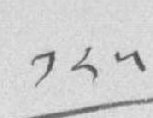༡༨༥
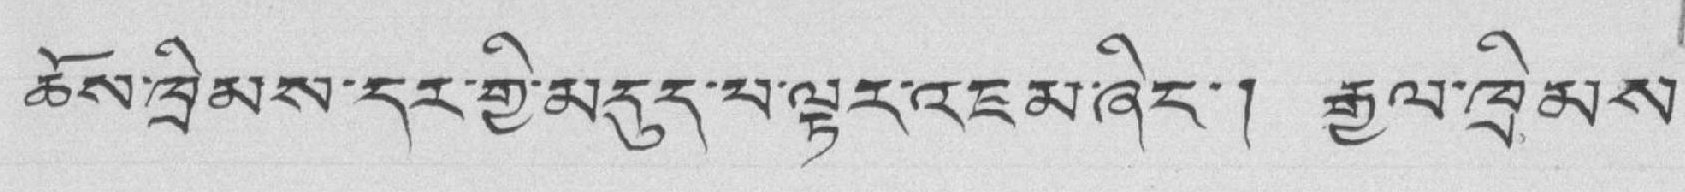ཆོས་ཁྲིམས་དར་གྱི་མདུད་པ་ལྟར་འཇམ་ཞིང་། རྒྱལ་ཁྲིམས་
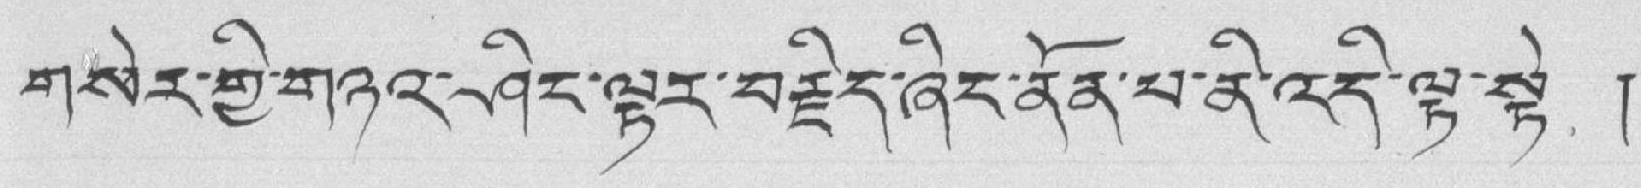གསེར་གྱི་གཉའ་ཤིང་ལྟར་བརྗིད་ཞིང་ནོན་པ་ནི་འདི་ལྟ་སྟེ །
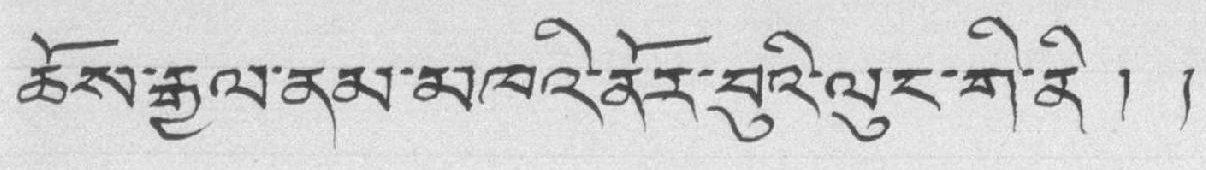ཆོས་རྒྱལ་ནམ་མཁའི་ནོར་བུའི་ལུང་གི་ནི།།
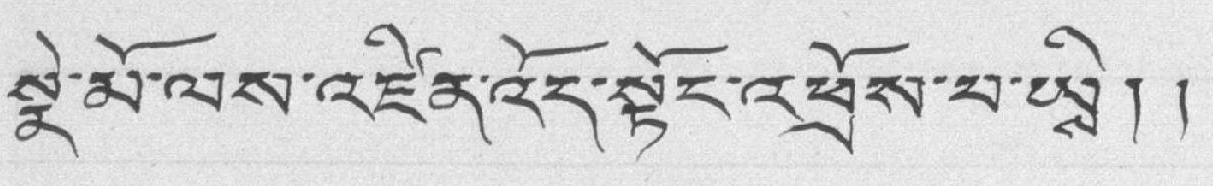སྣེ་མོ་ལས་འཛིན་འོད་སྟོང་འཕྲོས་པ་ཡིས།།
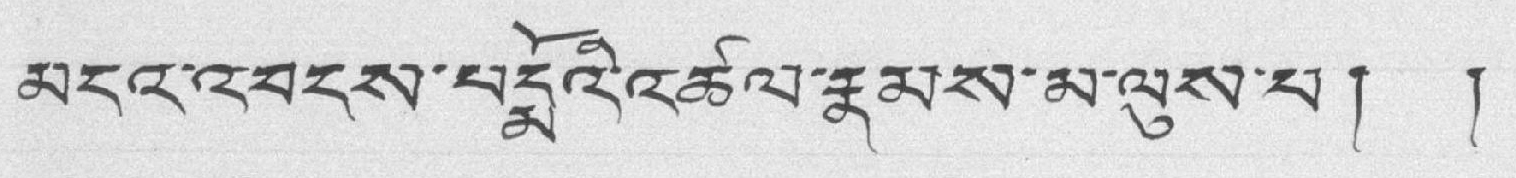མངའ་འབངས་པདྨོའི་འཚལ་རྣམས་མ་ལུས་པ། །
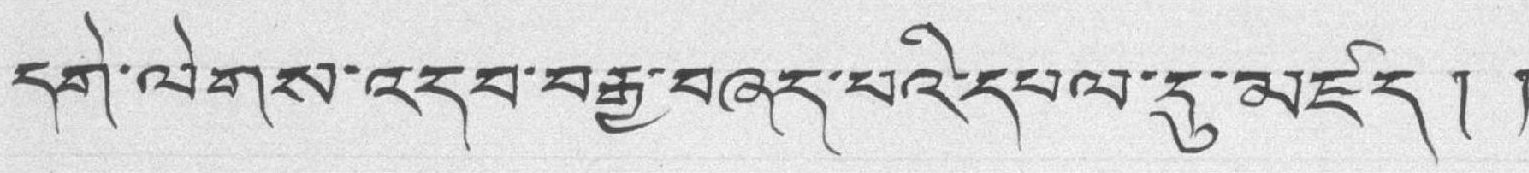དགེ་ལེགས་འདབ་བརྒྱ་བཞད་པའི་དཔལ་དུ་མཛད།།
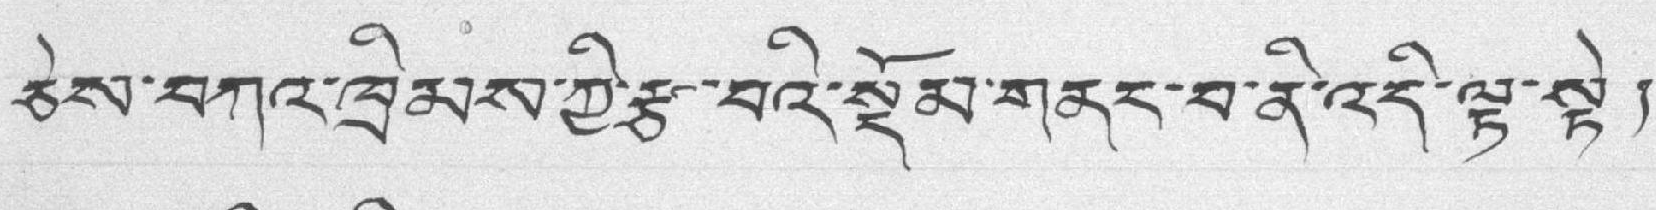ཅེས་བཀའ་ཁྲིམས་ཀྱི་རྩ་བའི་སྡོམ་གནང་བ་ནི་འདི་ལྟ་སྟེ།
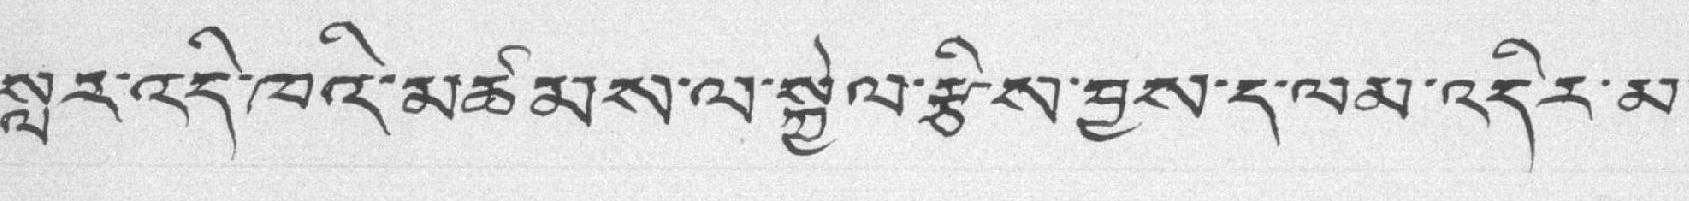སླར་འདི་ཁའི་མཚམས་ལ་སྐྱེལ་རྩིས་བྱས་ད་ལམ་འདིར་མ་
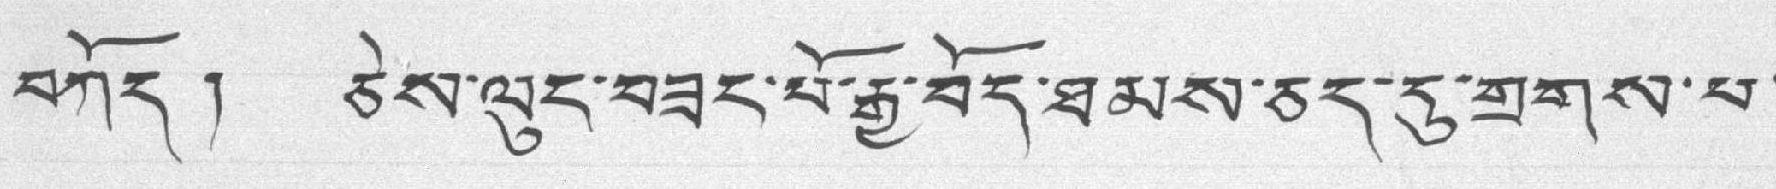བཀོད། ཅེས་ལུང་བཟང་པོ་རྒྱ་བོད་ཐམས་ཅད་དུ་གྲགས་པ་
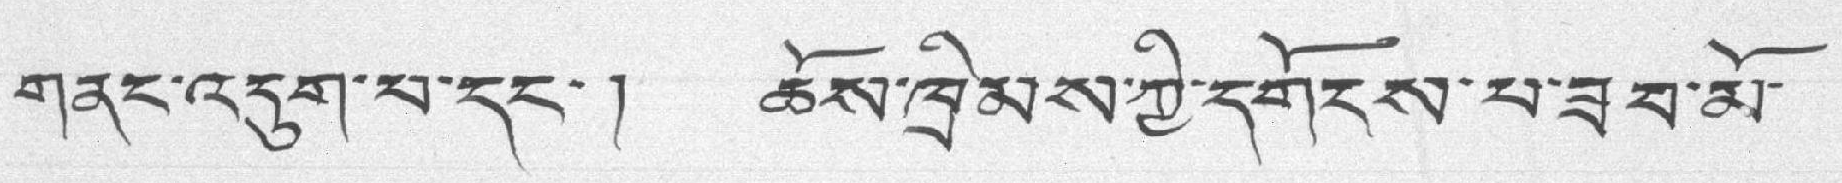གནང་འདུག་པ་དང་། ཆོས་ཁྲིམས་ཀྱི་དགོངས་པ་ཟབ་མོ་
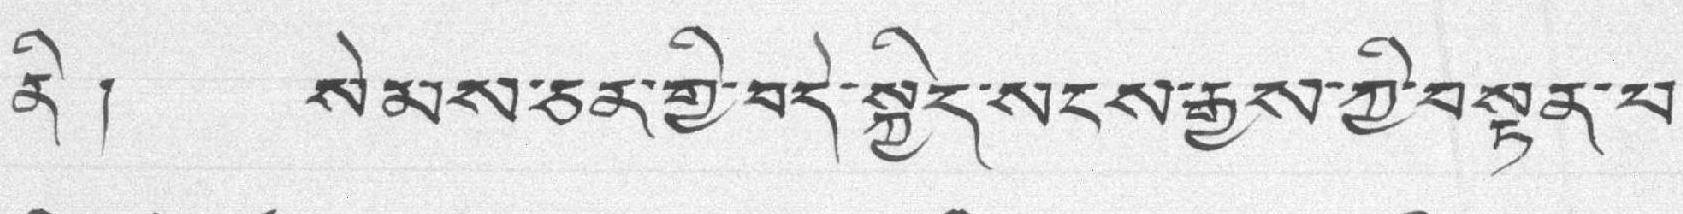ནི། སེམས་ཅན་གྱི་བདེ་སྐྱིད་སངས་རྒྱས་ཀྱི་བསྟན་པ་
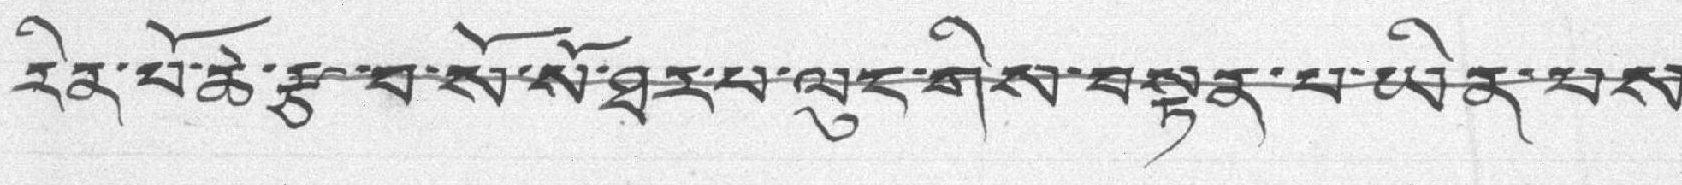རིན་པོ་ཚེ་རྩ་བ་སོ་སོ་ཐར་པ་ལུད་གིས་བསྟན་པ་ཡིན་པས་
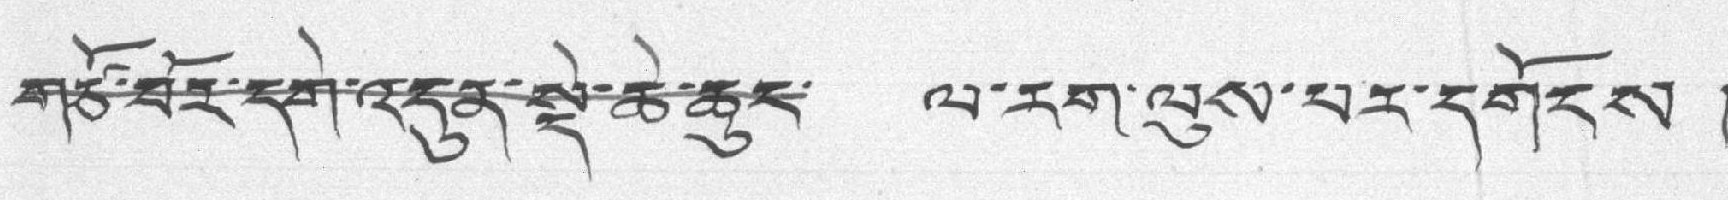གཙོ་བོར་དགེ་འདུན་སྡེ་ཆེ་ཆུང་ ལ་རག་ལུས་པར་དགོངས །
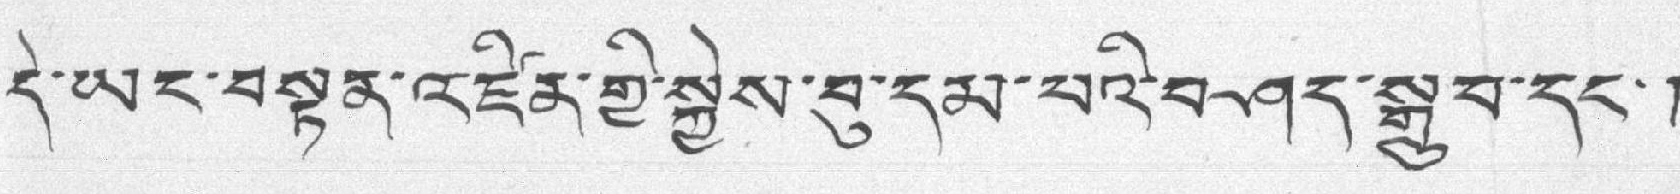དེ་ཡང་བསྟན་འཛིན་གྱི་སྐྱེས་བུ་དམ་པའི་བཤད་སྒྲུབ་དང་།
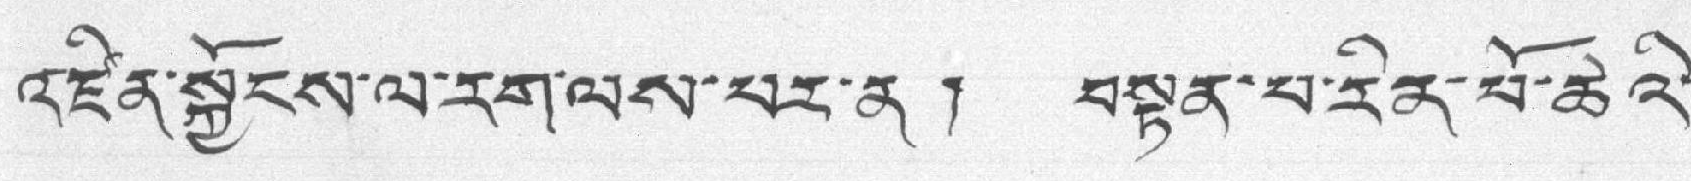འཛིན་སྐྱོངས་ལ་རག་ལས་པར་ན། བསྟན་པ་རིན་པོ་ཆེའི་
